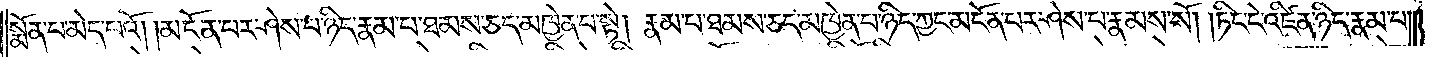སྨོན་པ་མེད་པའོ། མངོན་པར་ཤེས་པ་ཉིད་རྣམ་པ་ཐམས་ཅད་མཁྱེན་པ་སྟེ། རྣམ་པ་ཐམས་ཅད་མཁྱེན་པ་ཉིད་ཀྱང་མངོན་པར་ཤེས་པ་རྣམས་སོ། །ཏིང་ངེ་འཛིན་ཉིད་རྣམ་པ་
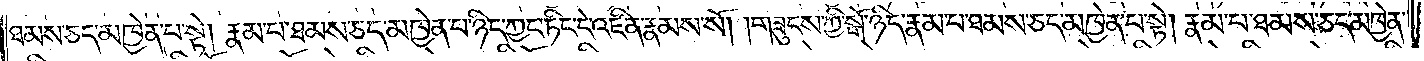ཐམས་ཅད་མཁྱེན་པ་སྟེ། རྣམ་པ་ཐམས་ཅད་མཁྱེན་པ་ཉིད་ཀྱང་ཏིང་ངེ་འཛིན་རྣམས་སོ། །གཟུངས་ཀྱི་སྒོ་ཉིད་རྣམ་པ་ཐམས་ཅད་མཁྱེན་པ་སྟེ། རྣམ་པ་ཐམས་ཅད་མཁྱེན་
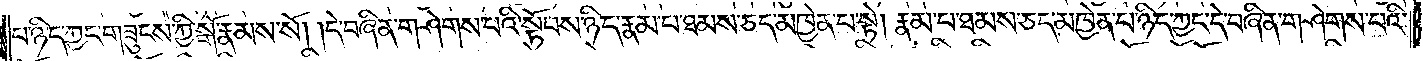པ་ཉིད་ཀྱང་གཟུངས་ཀྱི་སྒོ་རྣམས་སོ། །དེ་བཞིན་གཤེགས་པའི་སྟོབས་ཉིད་རྣམ་པ་ཐམས་ཅད་མཁྱེན་པ་སྟེ། རྣམ་པ་ཐམས་ཅད་མཁྱེན་པ་ཉིད་ཀྱང་དེ་བཞིན་གཤེགས་པའི་
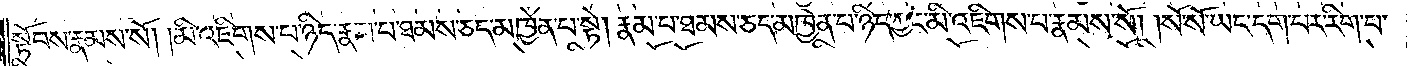སྟོབས་རྣམས་སོ། །མི་འཇིགས་པ་ཉིད་རྣམ་པ་ཐམས་ཅད་མཁྱེན་པ་སྟེ། རྣམ་པ་ཐམས་ཅད་མཁྱེན་པ་ཉིད་ཀྱང་མི་འཇིགས་པ་རྣམས་སོ། །སོ་སོ་ཡང་དག་པར་རིག་པ་
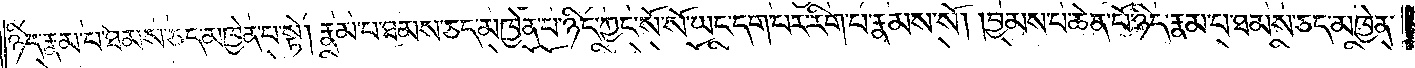ཉིད་རྣམ་པ་ཐམས་ཅད་མཁྱེན་པ་སྟེ། རྣམ་པ་ཐམས་ཅད་མཁྱེན་པ་ཉིད་ཀྱང་སོ་སོ་ཡང་དག་པར་རིག་པ་རྣམས་སོ། །བྱམས་པ་ཆེན་པོ་ཉིད་རྣམ་པ་ཐམས་ཅད་མཁྱེན་
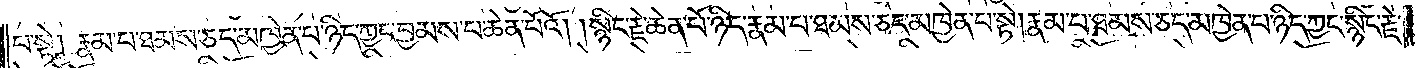པ་སྟེ། རྣམ་པ་ཐམས་ཅད་མཁྱེན་པ་ཉིད་ཀྱང་བྱམས་པ་ཆེན་པོའོ། །སྙིང་རྗེ་ཆེན་པོ་ཉིད་རྣམ་པ་ཐམས་ཅད་མཁྱེན་པ་སྟེ། རྣམ་པ་ཐམས་ཅད་མཁྱེན་པ་ཉིད་ཀྱང་སྙིང་རྗེ་
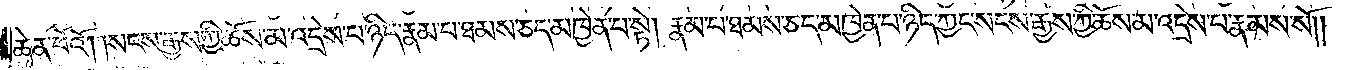ཆེན་པོའོ། །སངས་རྒྱས་ཀྱི་ཆོས་མ་འདྲེས་པ་ཉིད་རྣམ་པ་ཐམས་ཅད་མཁྱེན་པ་སྟེ། རྣམ་པ་ཐམས་ཅད་མཁྱེན་པ་ཉིད་ཀྱང་སངས་རྒྱས་ཀྱི་ཆོས་མ་འདྲེས་པ་རྣམས་སོ༎
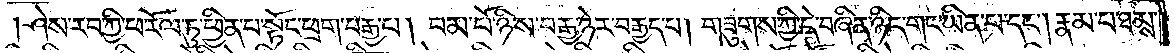ཤེས་རབ་ཀྱི་ཕ་རོལ་ཏུ་ཕྱིན་པ་སྟོང་ཕྲག་བརྒྱ་པ། །བམ་པོ་ཉིས་བརྒྱ་ཉེར་བརྒྱད་པ། །གཟུགས་ཀྱི་དེ་བཞིན་ཉིད་གང་ཡིན་པ་དང༌། རྣམ་པ་ཐམས་
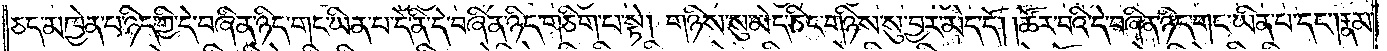ཅད་མཁྱེན་པ་ཉིད་ཀྱི་དེ་བཞིན་ཉིད་གང་ཡིན་པ་དེ་ནི་དེ་བཞིན་ཉིད་གཅིག་པ་སྟེ། གཉིས་སུ་མེད་ཅིང་གཉིས་སུ་བྱར་མེད་དོ། །ཚོར་བའི་དེ་བཞིན་ཉིད་གང་ཡིན་པ་དང༌། རྣམ་
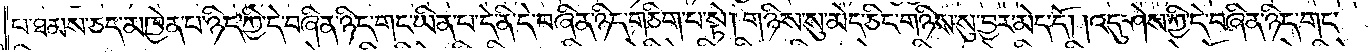པ་ཐམས་ཅད་མཁྱེན་པ་ཉིད་ཀྱི་དེ་བཞིན་ཉིད་གང་ཡིན་པ་དེ་ནི་དེ་བཞིན་ཉིད་གཅིག་པ་སྟེ། གཉིས་སུ་མེད་ཅིང་གཉིས་སུ་བྱར་མེད་དོ། །འདུ་ཤེས་ཀྱི་དེ་བཞིན་ཉིད་གང་
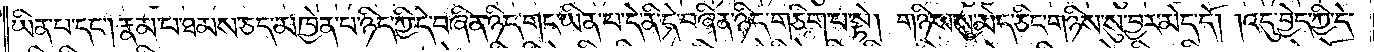ཡིན་པ་དང༌། རྣམ་པ་ཐམས་ཅད་མཁྱེན་པ་ཉིད་ཀྱི་དེ་བཞིན་ཉིད་གང་ཡིན་པ་དེ་ནི་དེ་བཞིན་ཉིད་གཅིག་པ་སྟེ། གཉིས་སུ་མེད་ཅིང་གཉིས་སུ་བྱར་མེད་དོ། །འདུ་བྱེད་ཀྱི་དེ་
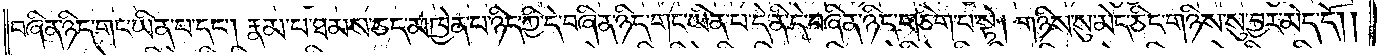བཞིན་ཉིད་གང་ཡིན་པ་དང༌། རྣམ་པ་ཐམས་ཅད་མཁྱེན་པ་ཉིད་ཀྱི་དེ་བཞིན་ཉིད་གང་ཡིན་པ་དེ་ནི་དེ་བཞིན་ཉིད་གཅིག་པ་སྟེ། གཉིས་སུ་མེད་ཅིང་གཉིས་སུ་བྱར་མེད་དོ༎
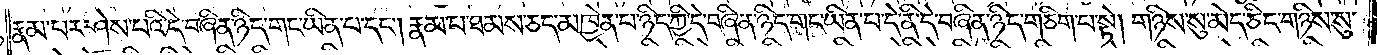རྣམ་པར་ཤེས་པའི་དེ་བཞིན་ཉིད་གང་ཡིན་པ་དང༌། རྣམ་པ་ཐམས་ཅད་མཁྱེན་པ་ཉིད་ཀྱི་དེ་བཞིན་ཉིད་གང་ཡིན་པ་དེ་ནི་དེ་བཞིན་ཉིད་གཅིག་པ་སྟེ། གཉིས་སུ་མེད་ཅིང་གཉིས་སུ་
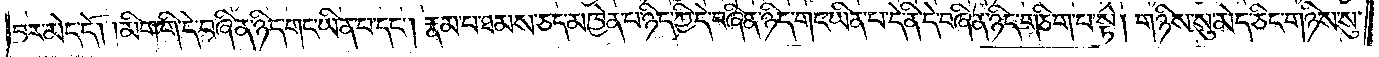བྱར་མེད་དོ། །མིག་གི་དེ་བཞིན་ཉིད་གང་ཡིན་པ་དང༌། རྣམ་པ་ཐམས་ཅད་མཁྱེན་པ་ཉིད་ཀྱི་དེ་བཞིན་ཉིད་གང་ཡིན་པ་དེ་ནི་དེ་བཞིན་ཉིད་གཅིག་པ་སྟེ། གཉིས་སུ་མེད་ཅིང་གཉིས་སུ་
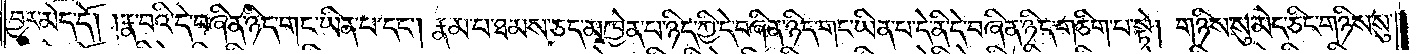བྱར་མེད་དོ། །རྣ་བའི་དེ་བཞིན་ཉིད་གང་ཡིན་པ་དང༌། རྣམ་པ་ཐམས་ཅད་མཁྱེན་པ་ཉིད་ཀྱི་དེ་བཞིན་ཉིད་གང་ཡིན་པ་དེ་ནི་དེ་བཞིན་ཉིད་གཅིག་པ་སྟེ། གཉིས་སུ་མེད་ཅིང་གཉིས་སུ་
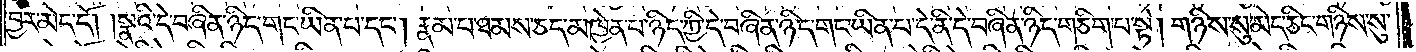བྱར་མེད་དོ། །སྣའི་དེ་བཞིན་ཉིད་གང་ཡིན་པ་དང༌། རྣམ་པ་ཐམས་ཅད་མཁྱེན་པ་ཉིད་ཀྱི་དེ་བཞིན་ཉིད་གང་ཡིན་པ་དེ་ནི་དེ་བཞིན་ཉིད་གཅིག་པ་སྟེ། གཉིས་སུ་མེད་ཅིང་གཉིས་སུ་
